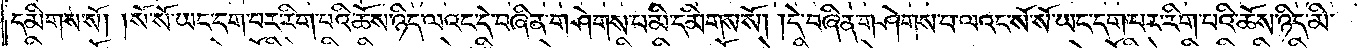དམིགས་སོ། །སོ་སོ་ཡང་དག་པར་རིག་པའི་ཆོས་ཉིད་ལའང་དེ་བཞིན་གཤེགས་པ་མི་དམིགས་སོ། །དེ་བཞིན་གཤེགས་པ་ལའང་སོ་སོ་ཡང་དག་པར་རིག་པའི་ཆོས་ཉིད་མི་
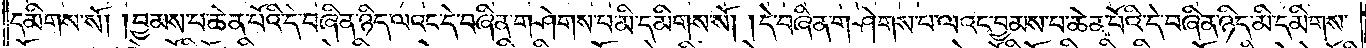དམིགས་སོ། །བྱམས་པ་ཆེན་པོའི་དེ་བཞིན་ཉིད་ལའང་དེ་བཞིན་གཤེགས་པ་མི་དམིགས་སོ། །དེ་བཞིན་གཤེགས་པ་ལའང་བྱམས་པ་ཆེན་པོའི་དེ་བཞིན་ཉིད་མི་དམིགས་
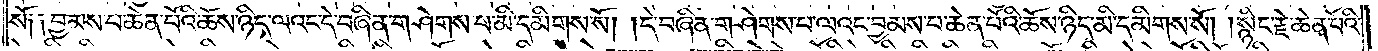སོ། །བྱམས་པ་ཆེན་པོའི་ཆོས་ཉིད་ལའང་དེ་བཞིན་གཤེགས་པ་མི་དམིགས་སོ། །དེ་བཞིན་གཤེགས་པ་ལའང་བྱམས་པ་ཆེན་པོའི་ཆོས་ཉིད་མི་དམིགས་སོ། །སྙིང་རྗེ་ཆེན་པོའི་
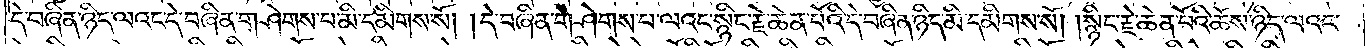དེ་བཞིན་ཉིད་ལའང་དེ་བཞིན་གཤེགས་པ་མི་དམིགས་སོ། །དེ་བཞིན་གཤེགས་པ་ལའང་སྙིང་རྗེ་ཆེན་པོའི་དེ་བཞིན་ཉིད་མི་དམིགས་སོ། །སྙིང་རྗེ་ཆེན་པོའི་ཆོས་ཉིད་ལའང་
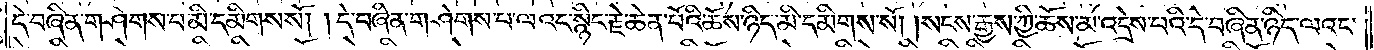དེ་བཞིན་གཤེགས་པ་མི་དམིགས་སོ། །དེ་བཞིན་གཤེགས་པ་ལའང་སྙིང་རྗེ་ཆེན་པོའི་ཆོས་ཉིད་མི་དམིགས་སོ། །སངས་རྒྱས་ཀྱི་ཆོས་མ་འདྲེས་པའི་དེ་བཞིན་ཉིད་ལའང་
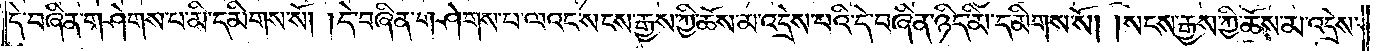དེ་བཞིན་གཤེགས་པ་མི་དམིགས་སོ། །དེ་བཞིན་གཤེགས་པ་ལའང་སངས་རྒྱས་ཀྱི་ཆོས་མ་འདྲེས་པའི་དེ་བཞིན་ཉིད་མི་དམིགས་སོ། །སངས་རྒྱས་ཀྱི་ཆོས་མ་འདྲེས་
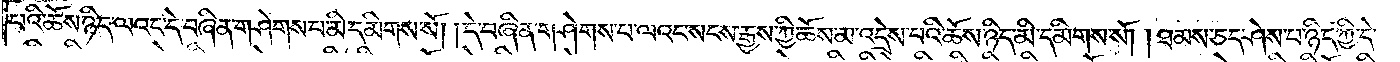པའི་ཆོས་ཉིད་ལའང་དེ་བཞིན་གཤེགས་པ་མི་དམིགས་སོ། །དེ་བཞིན་གཤེགས་པ་ལའང་སངས་རྒྱས་ཀྱི་ཆོས་མ་འདྲེས་པའི་ཆོས་ཉིད་མི་དམིགས་སོ། །ཐམས་ཅད་ཤེས་པ་ཉིད་ཀྱི་དེ་
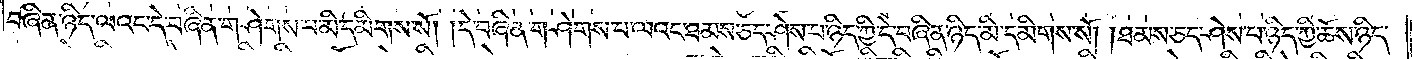བཞིན་ཉིད་ལའང་དེ་བཞིན་གཤེགས་པ་མི་དམིགས་སོ། །དེ་བཞིན་གཤེགས་པ་ལའང་ཐམས་ཅད་ཤེས་པ་ཉིད་ཀྱི་དེ་བཞིན་ཉིད་མི་དམིགས་སོ། །ཐམས་ཅད་ཤེས་པ་ཉིད་ཀྱི་ཆོས་ཉིད་
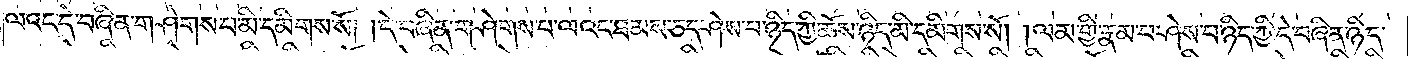ལའང་དེ་བཞིན་གཤེགས་པ་མི་དམིགས་སོ། །དེ་བཞིན་གཤེགས་པ་ལའང་ཐམས་ཅད་ཤེས་པ་ཉིད་ཀྱི་ཆོས་ཉིད་མི་དམིགས་སོ། །ལམ་གྱི་རྣམ་པ་ཤེས་པ་ཉིད་ཀྱི་དེ་བཞིན་ཉིད་
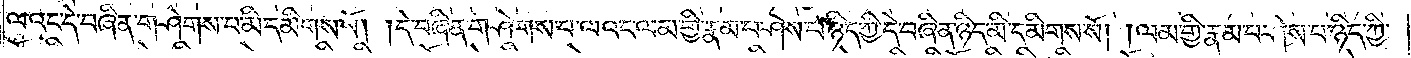ལའང་དེ་བཞིན་གཤེགས་པ་མི་དམིགས་སོ། །དེ་བཞིན་གཤེགས་པ་ལའང་ལམ་གྱི་རྣམ་པ་ཤེས་བ་ཉིད་ཀྱི་དེ་བཞིན་ཉིད་མི་དམིགས་སོ། །ལམ་གྱི་རྣམ་པ་ཤེས་པ་ཉིད་ཀྱི་
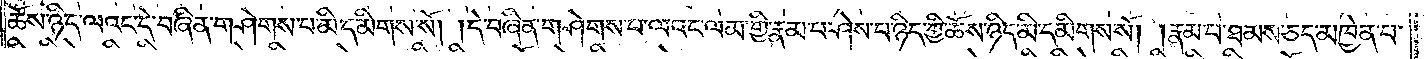ཆོས་ཉིད་ལའང་དེ་བཞིན་གཤེགས་པ་མི་དམིགས་སོ། །དེ་བཞིན་གཤེགས་པ་ལའང་ལམ་གྱི་རྣམ་པ་ཤེས་པ་ཉིད་ཀྱི་ཆོས་ཉིད་མི་དམིགས་སོ། །རྣམ་པ་ཐམས་ཅད་མཁྱེན་པ་
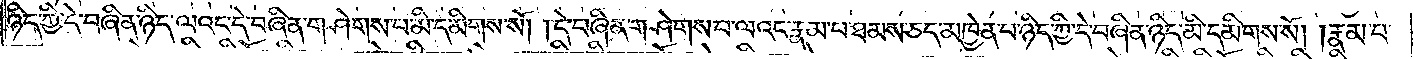ཉིད་ཀྱི་དེ་བཞིན་ཉིད་ལའང་དེ་བཞིན་གཤེགས་པ་མི་དམིགས་སོ། །དེ་བཞིན་གཤེགས་པ་ལའང་རྣམ་པ་ཐམས་ཅད་མཁྱེན་པ་ཉིད་ཀྱི་དེ་བཞིན་ཉིད་མི་དམིགས་སོ། །རྣམ་པ་
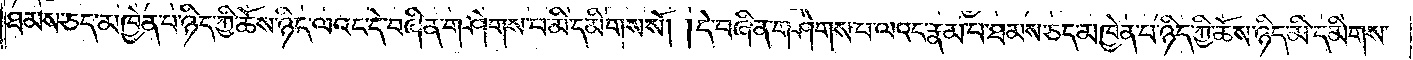ཐམས་ཅད་མཁྱེན་པ་ཉིད་ཀྱི་ཆོས་ཉིད་ལའང་དེ་བཞིན་གཤེགས་པ་མི་དམིགས་སོ། །དེ་བཞིན་གཤེགས་པ་ལའང་རྣམ་པ་ཐམས་ཅད་མཁྱེན་པ་ཉིད་ཀྱི་ཆོས་ཉིད་མི་དམིགས་
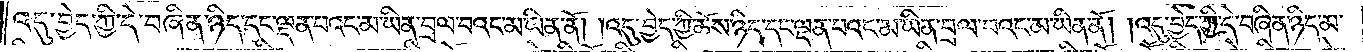འདུ་བྱེད་ཀྱི་དེ་བཞིན་ཉིད་དང་ལྡན་པའང་མ་ཡིན་བྲལ་བའང་མ་ཡིན་ནོ། །འདུ་བྱེད་ཀྱི་ཆོས་ཉིད་དང་ལྡན་པའང་མ་ཡིན་བྲལ་བའང་མ་ཡིན་ནོ། །འདུ་བྱེད་ཀྱི་དེ་བཞིན་ཉིད་མ་
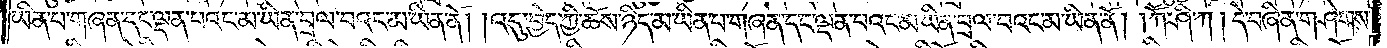ཡིན་པ་གཞན་དང་ལྡན་པའང་མ་ཡིན་བྲལ་བའང་མ་ཡིན་ནོ། །འདུ་བྱེད་ཀྱི་ཆོས་ཉིད་མ་ཡིན་པ་གཞན་དང་ལྡན་པའང་མ་ཡིན་བྲལ་བའང་མ་ཡིན་ནོ། །ཀཽ་ཤི་ཀ །དེ་བཞིན་གཤེགས་
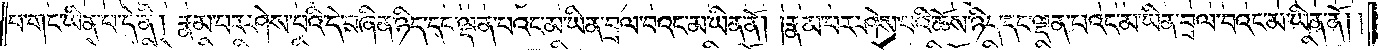པ་གང་ཡིན་པ་དེ་ནི། རྣམ་པར་ཤེས་པའི་དེ་བཞིན་ཉིད་དང་ལྡན་པའང་མ་ཡིན་བྲལ་བའང་མ་ཡིན་ནོ། །རྣམ་པར་ཤེས་པའི་ཆོས་ཉིད་དང་ལྡན་པའང་མ་ཡིན་བྲལ་བའང་མ་ཡིན་ནོ། །
